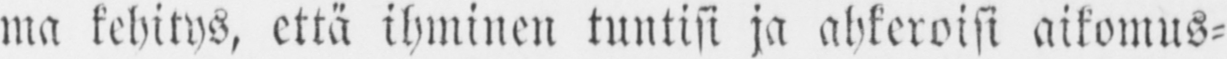ma kehitys, että ihminen tuntisi ja ahkeroisi aikomus-
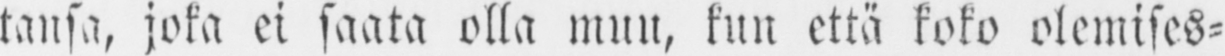tansa, joka ei saata olla muu, kun että koko olemises-
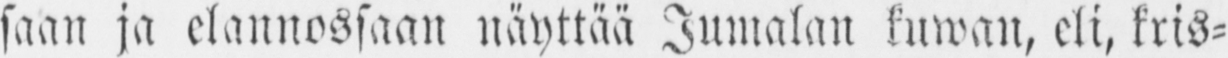saan ja elannossaan näyttää Jumalan kuwan, eli, kris-
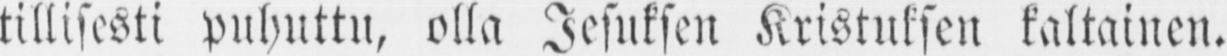tillisesti puhuttu, olla Jesuksen Kristuksen kaltainen.
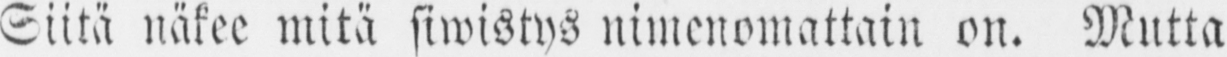Siitä näkee mitä siwistys nimenomattain on. Mutta
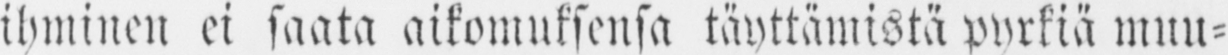ihminen ei saata aikomuksensa täyttämistä pyrkiä muu-
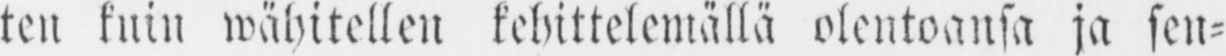ten kuin wähitellen kehittelemällä olentoansa ja sen-
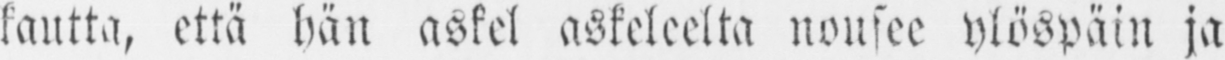tautta, että hän askel askeleelta nousee ylöspäin ja
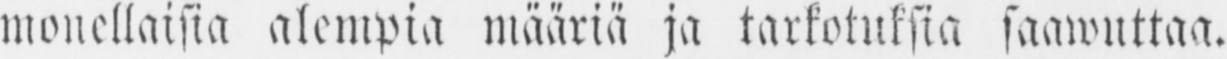monellaisia alempia määriä ja tarkotuksia saawuttaa.
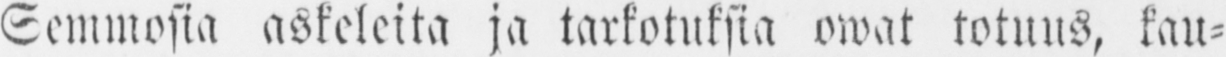Semmosta askeleita ja tarkotuksia owat totuus, kau-
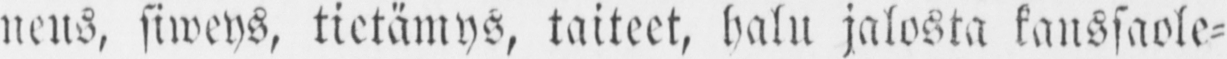neus, siweys, tietämys, taiteet, halu jalosta kanssaole-
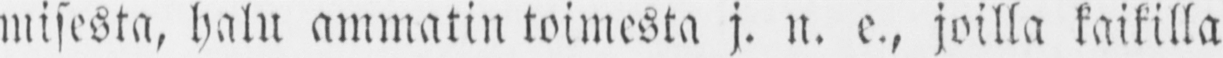misesta, halu ammatin toimesta j. n. e., joilla kaikilla
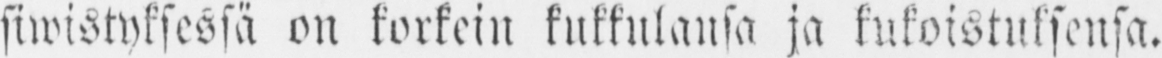siwistyksessä on korkein kukkulansa ja kukoistuksensa.
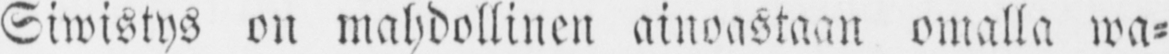Siwistys on mahdollinen ainoastaan omalla wa-
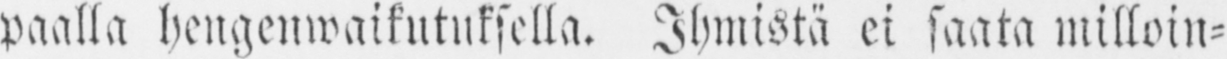paalla hengenwaikutuksella. Ihmistä ei saata milloin-
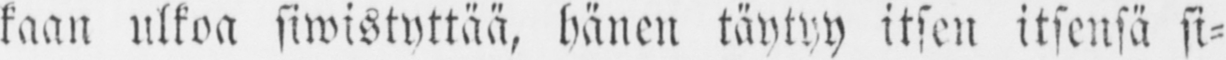kaan ulkoa siwistyttää, hänen täytyy itsen itsensä si-
